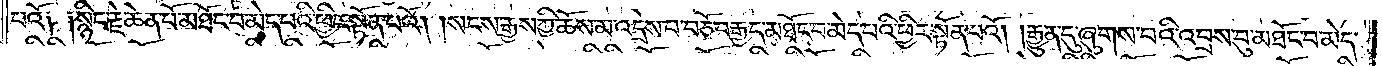པའོ༑ ༑སྙིང་རྗེ་ཆེན་པོ་མཐོང་བ་མེད་པའི་ཕྱིར་སྟོན་པའོ། །སངས་རྒྱས་ཀྱི་ཆོས་མ་འདྲེས་པ་བཅོ་བརྒྱད་མཐོང་བ་མེད་པའི་ཕྱིར་སྟོན་པའོ། །རྒྱུན་དུ་ཞུགས་པའི་འབྲས་བུ་མཐོང་བ་མེད་
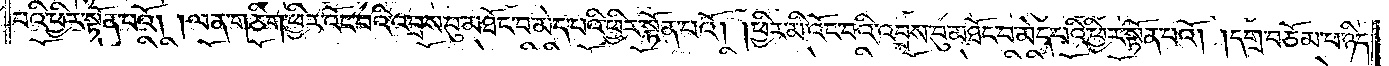པའི་ཕྱིར་སྟོན་པའོ། །ལན་གཅིག་ཕྱིར་འོང་བའི་འབྲས་བུ་མཐོང་བ་མེད་པའི་ཕྱིར་སྟོན་པའོ། །ཕྱིར་མི་འོང་བའི་འབྲས་བུ་མཐོང་བ་མེད་པའི་ཕྱིར་སྟོན་པའོ། །དགྲ་བཅོམ་པ་ཉིད་
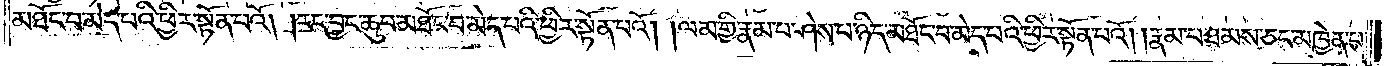མཐོང་བ་མེད་པའི་ཕྱིར་སྟོན་པའོ། །རང་བྱང་ཆུབ་མཐོང་བ་མེད་པའི་ཕྱིར་སྟོན་པའོ། །ལམ་གྱི་རྣམ་པ་ཤེས་པ་ཉིད་མཐོང་བ་མེད་པའི་ཕྱིར་སྟོན་པའོ། །རྣམ་པ་ཐམས་ཅད་མཁྱེན་པ་
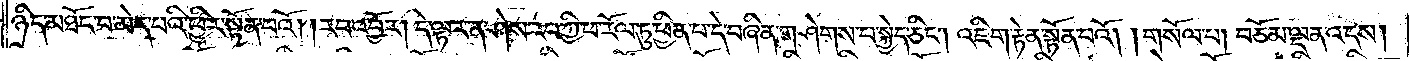ཉིད་མཐོང་བ་མེད་པའི་ཕྱིར་སྟོན་པའོ། །རབ་འབྱོར། དེ་ལྟར་ན་ཤེས་རབ་ཀྱི་ཕ་རོལ་ཏུ་ཕྱིན་པ་དེ་བཞིན་གཤེགས་པ་བསྐྱེད་ཅིང་། འཇིག་རྟེན་སྟོན་པའོ། །གསོལ་པ། བཅོམ་ལྡན་འདས།
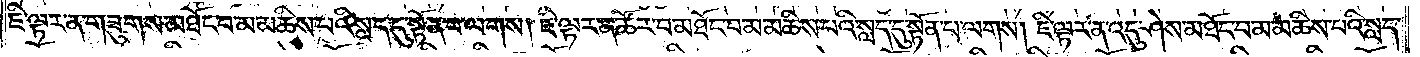ཇི་ལྟར་ན་གཟུགས་མཐོང་བ་མ་མཆིས་པའི་སླད་དུ་སྟོན་པ་ལགས། ཇི་ལྟར་ན་ཚོར་བ་མཐོང་བ་མ་མཆིས་པའི་སླད་དུ་སྟོན་པ་ལགས། ཇི་ལྟར་ན་འདུ་ཤེས་མཐོང་བ་མ་མཆིས་པའི་སླད་
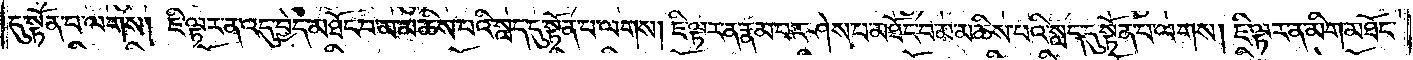དུ་སྟོན་པ་ལགས། ཇི་ལྟར་ན་འདུ་བྱེད་མཐོང་བ་མ་མཆིས་པའི་སླད་དུ་སྟོན་པ་ལགས། ཇི་ལྟར་ན་རྣམ་པར་ཤེས་པ་མཐོང་བ་མ་མཆིས་པའི་སླད་དུ་སྟོན་པ་ལགས། ཇི་ལྟར་ན་མིག་མཐོང་
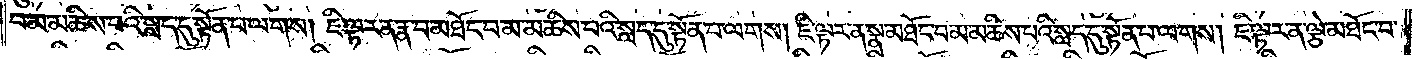བ་མ་མཆིས་པའི་སླད་དུ་སྟོན་པ་ལགས། ཇི་ལྟར་ན་རྣ་བ་མཐོང་བ་མ་མཆིས་པའི་སླད་དུ་སྟོན་པ་ལགས། ཇི་ལྟར་ན་སྣ་མཐོང་བ་མ་མཆིས་པའི་སླད་དུ་སྟོན་པ་ལགས། ཇི་ལྟར་ན་ལྕེ་མཐོང་བ་
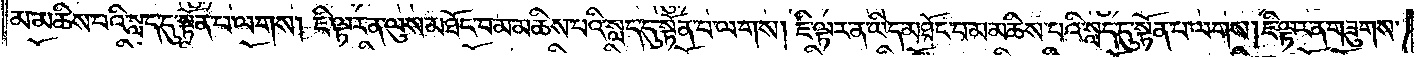མ་མཆིས་པའི་སླད་དུ་སྟོན་པ་ལགས། ཇི་ལྟར་ན་ལུས་མཐོང་བ་མ་མཆིས་པའི་སླད་དུ་སྟོན་པ་ལགས། ཇི་ལྟར་ན་ཡིད་མཐོང་བ་མ་མཆིས་པའི་སླད་དུ་སྟོན་པ་ལགས། ཇི་ལྟར་ན་གཟུགས་
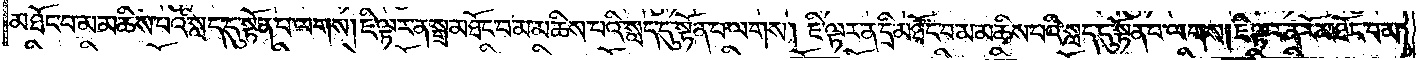མཐོང་བ་མ་མཆིས་པའི་སླད་དུ་སྟོན་པ་ལགས། ཇི་ལྟར་ན་སྒྲ་མཐོང་བ་མ་མཆིས་པའི་སླད་དུ་སྟོན་པ་ལགས། ཇི་ལྟར་ན་དྲི་མཐོང་བ་མ་མཆིས་པའི་སླད་དུ་སྟོན་པ་ལགས། ཇི་ལྟར་ན་རོ་མཐོང་བ་མ་
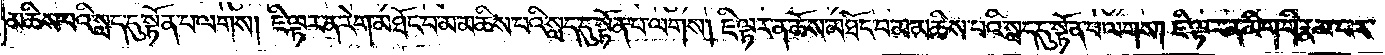མཆིས་པའི་སླད་དུ་སྟོན་པ་ལགས། ཇི་ལྟར་ན་རེག་མཐོང་བ་མ་མཆིས་པའི་སླད་དུ་སྟོན་པ་ལགས། ཇི་ལྟར་ན་ཆོས་མཐོང་བ་མ་མཆིས་པའི་སླད་དུ་སྟོན་པ་ལགས། ཇི་ལྟར་ན་མིག་གི་རྣམ་པར་
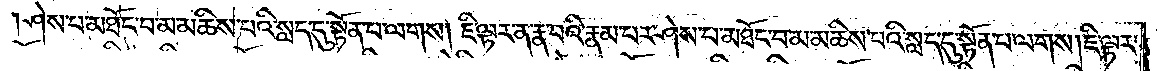ཤེས་པ་མཐོང་བ་མ་མཆིས་པའི་སླད་དུ་སྟོན་པ་ལགས། ཇི་ལྟར་ན་རྣ་བའི་རྣམ་པར་ཤེས་པ་མཐོང་བ་མ་མཆིས་པའི་སླད་དུ་སྟོན་པ་ལགས། ཇི་ལྟར་
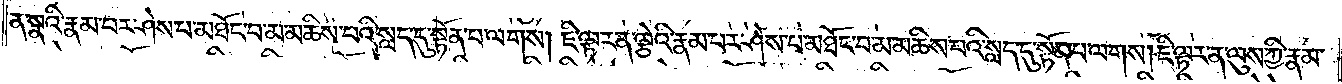ན་སྣའི་རྣམ་པར་ཤེས་པ་མཐོང་བ་མ་མཆིས་པའི་སླད་དུ་སྟོན་པ་ལགས། ཇི་ལྟར་ན་ལྕེའི་རྣམ་པར་ཤེས་པ་མཐོང་བ་མ་མཆིས་པའི་སླད་དུ་སྟོན་པ་ལགས། ཇི་ལྟར་ན་ལུས་ཀྱི་རྣམ་
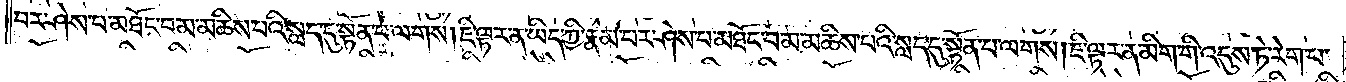པར་ཤེས་པ་མཐོང་བ་མ་མཆིས་པའི་སླད་དུ་སྟོན་པ་ལགས། ཇི་ལྟར་ན་ཡིད་ཀྱི་རྣམ་པར་ཤེས་པ་མཐོང་བ་མ་མཆིས་པའི་སླད་དུ་སྟོན་པ་ལགས། ཇི་ལྟར་ན་མིག་གི་འདུས་ཏེ་རེག་པ་
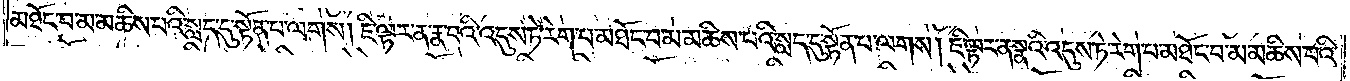མཐོང་བ་མ་མཆིས་པའི་སླད་དུ་སྟོན་པ་ལགས། ཇི་ལྟར་ན་རྣ་བའི་འདུས་ཏེ་རེག་པ་མཐོང་བ་མ་མཆིས་པའི་སླད་དུ་སྟོན་པ་ལགས། ཇི་ལྟར་ན་སྣའི་འདུས་ཏེ་རེག་པ་མཐོང་བ་མ་མཆིས་པའི་
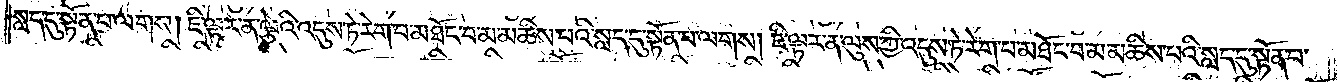སླད་དུ་སྟོན་པ་ལགས། ཇི་ལྟར་ན་ལྕེའི་འདུས་ཏེ་རེག་པ་མཐོང་བ་མ་མཆིས་པའི་སླད་དུ་སྟོན་པ་ལགས། ཇི་ལྟར་ན་ལུས་ཀྱི་འདུས་ཏེ་རེག་པ་མཐོང་བ་མ་མཆིས་པའི་སླད་དུ་སྟོན་པ་
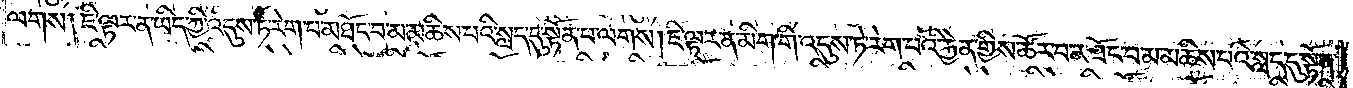ལགས། ཇི་ལྟར་ན་ཡིད་ཀྱི་འདུས་ཏེ་རེག་པ་མཐོང་བ་མ་མཆིས་པའི་སླད་དུ་སྟོན་པ་ལགས། ཇི་ལྟར་ན་མིག་གི་འདུས་ཏེ་རེག་པའི་རྐྱེན་གྱིས་ཚོར་བ་མཐོང་བ་མ་མཆིས་པའི་སླད་དུ་སྟོན་
